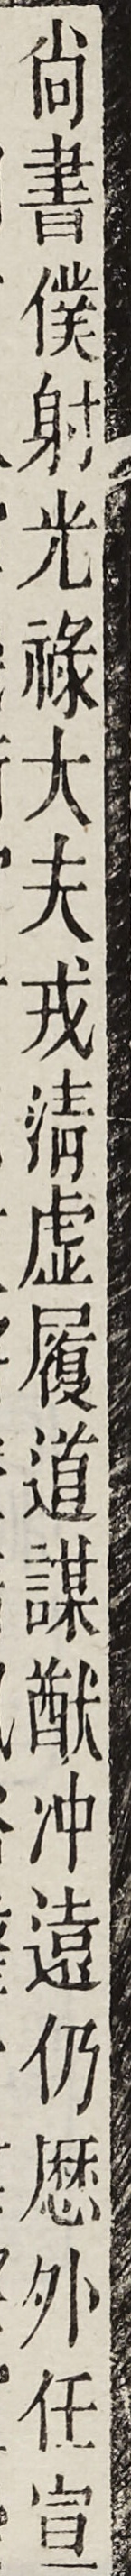尚書僕射光祿大夫戎清虛履道謀猷衝遠仍厯外任宣
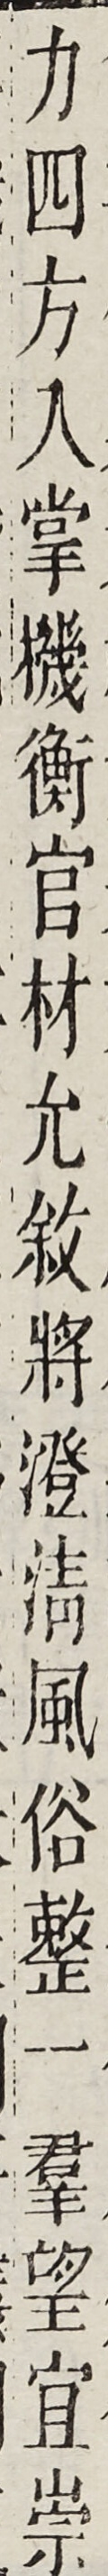力四方入掌機衡官材允敘將澄清風俗整一群望宜崇
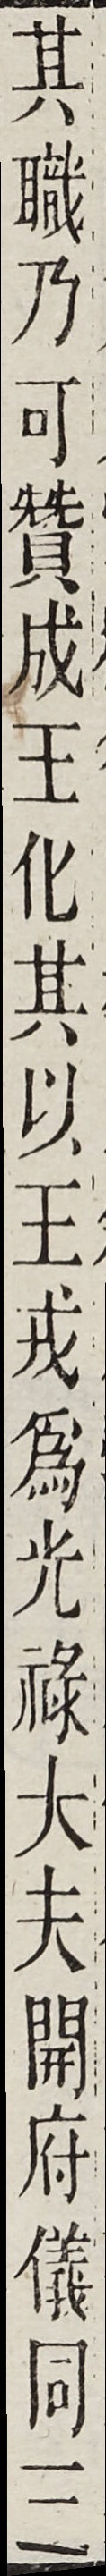其職乃可贊成王化其以王成為光祿大夫開府儀同三
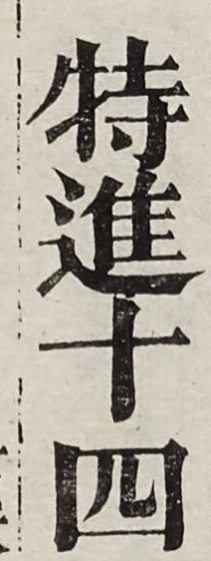特進十四
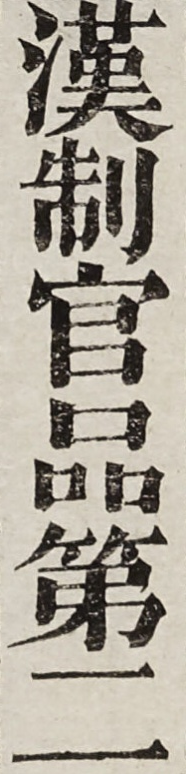漢制官品第二
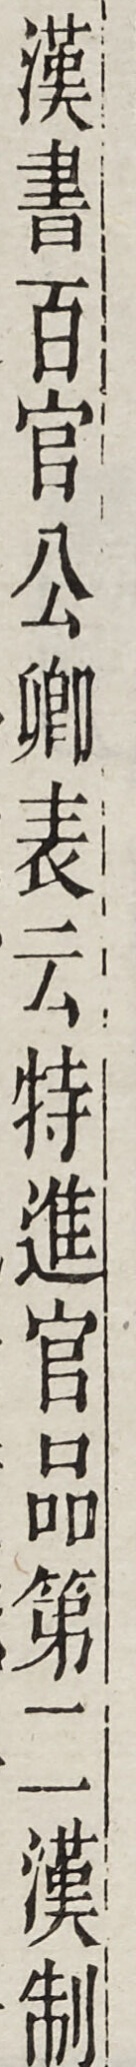漢書百官公卿表云特進官品第二漢制
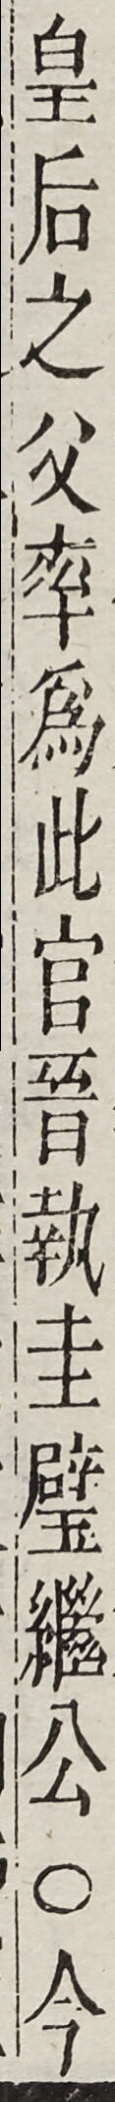皇后之父率為此官晉執圭璧繼公○今
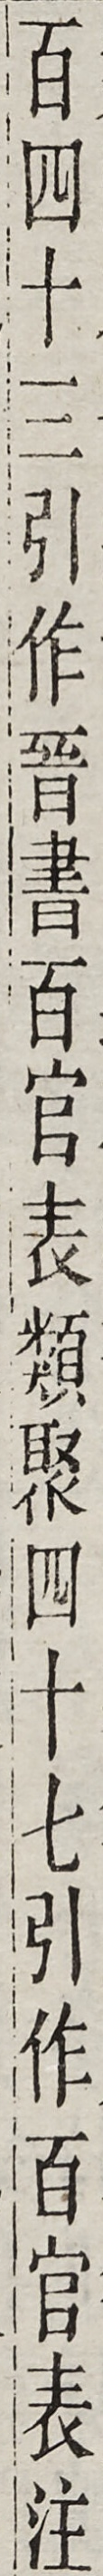百四十三引作晉書百官表類聚四十七引作百官表注
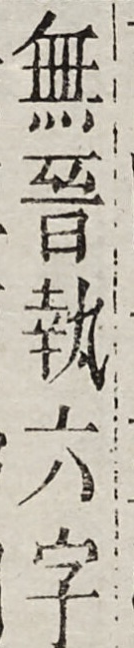無晉執六字
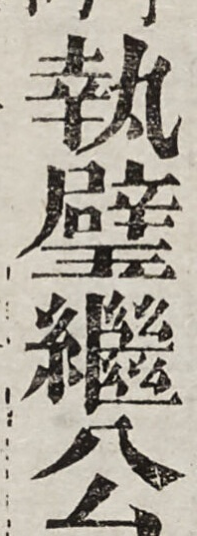執璧繼公
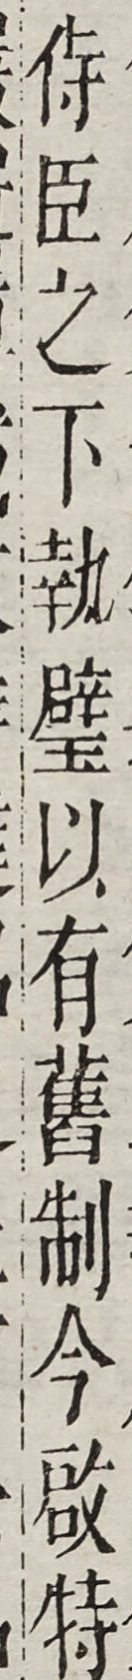待臣之下執璧以有舊制今啟特
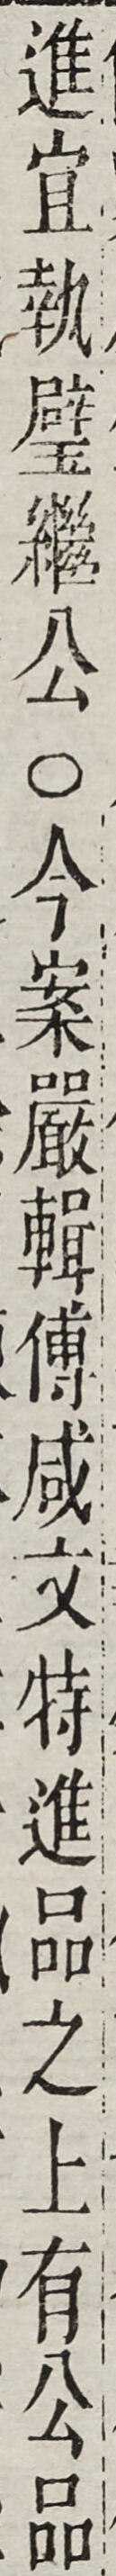進宜執璧繼公○今案嚴輯傅咸文特進品之上有公品
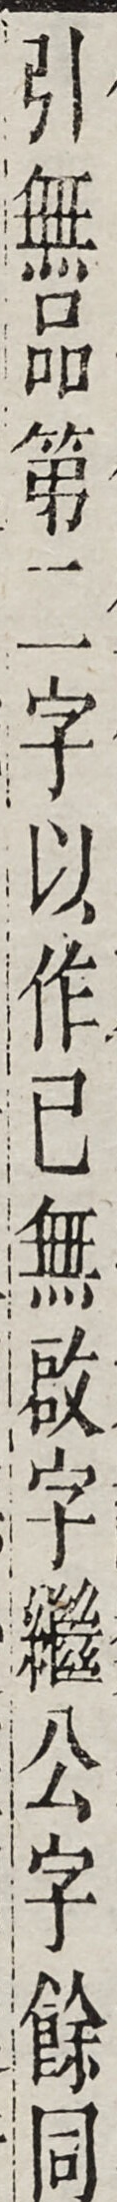引無品第二字以作已無啟字繼公字餘同
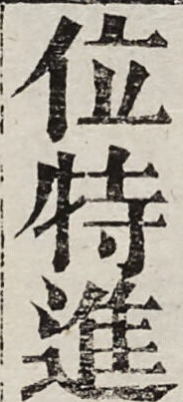位特進
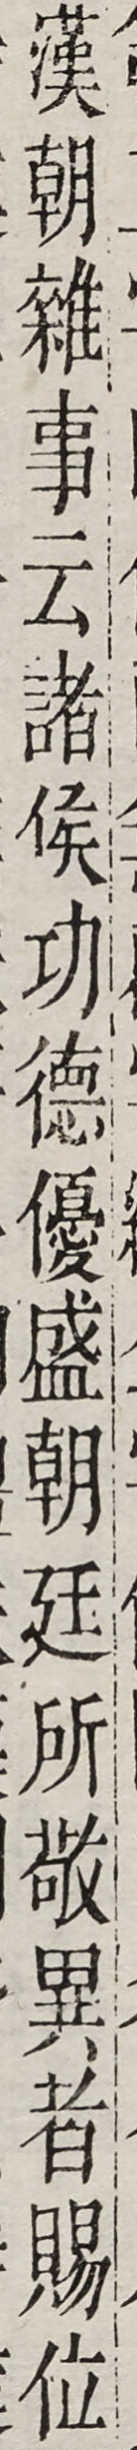漢朝雜事云諸侯功德優盛朝廷所敬異者賜位
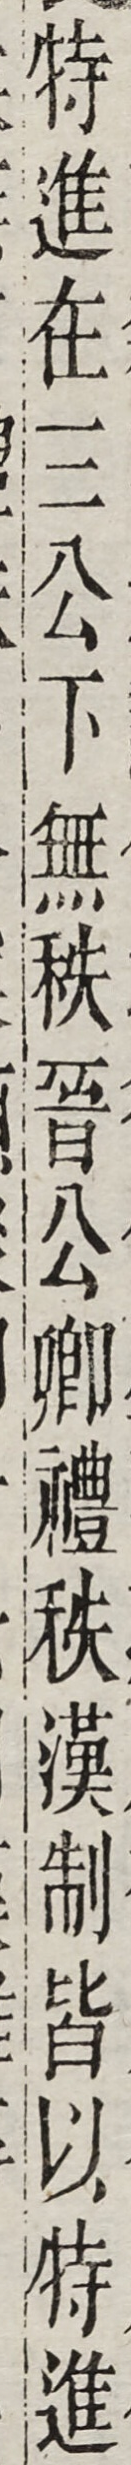特進在三公下無秩晉公卿禮秩漢制皆以特進
